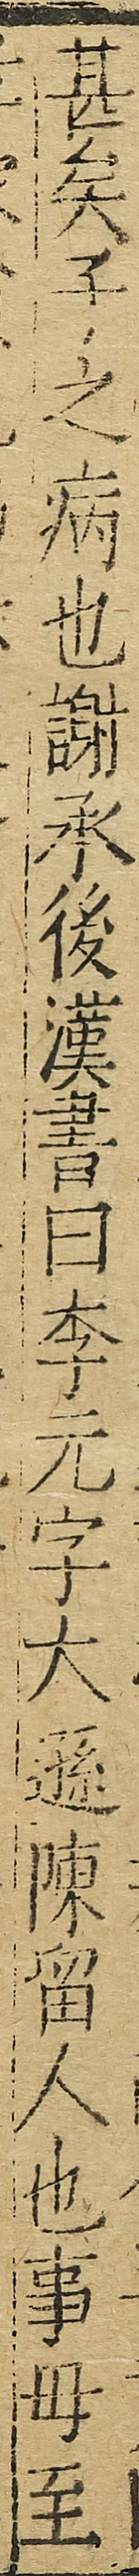甚矣子之病也謝氶後漢書曰李元字大遜陳留人也事母至
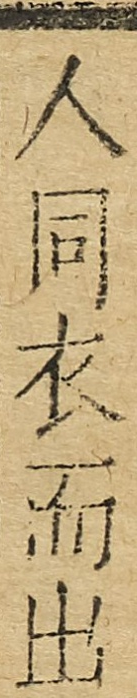人同衣而出
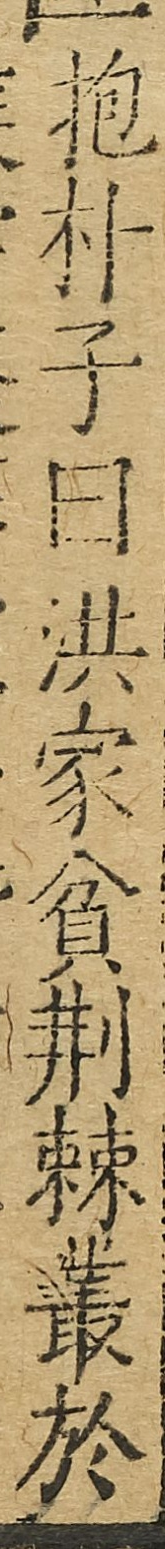抱樸子曰洪家貧荊棘叢於
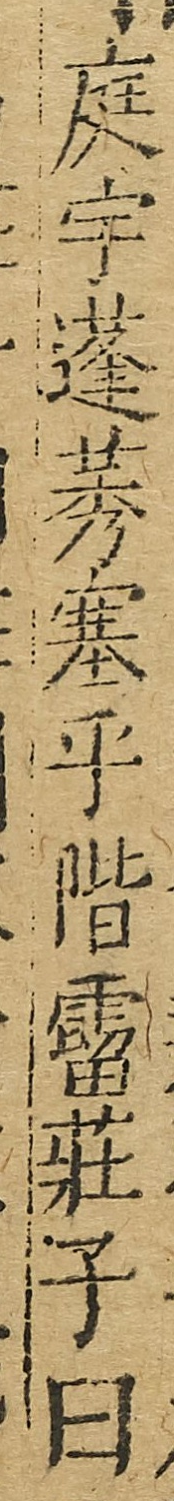庭宇蓬莠塞乎階霤莊子曰
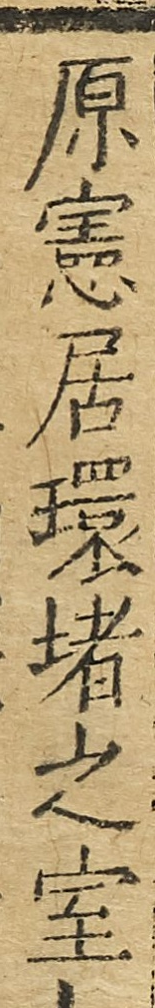原憲居環堵之室
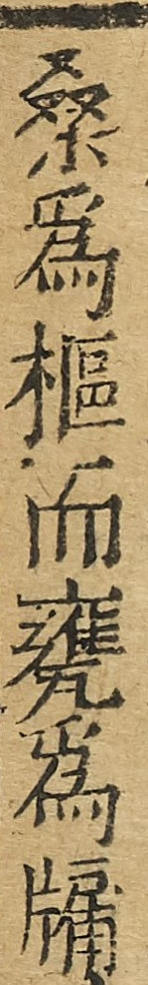桑為樞而甕為牖
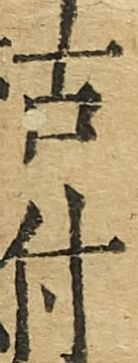枯鮒
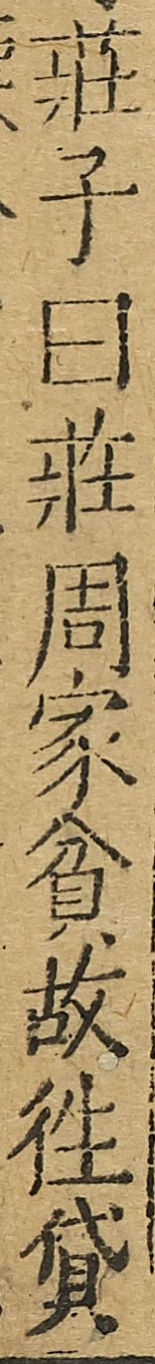莊子曰莊周家貧故往貸
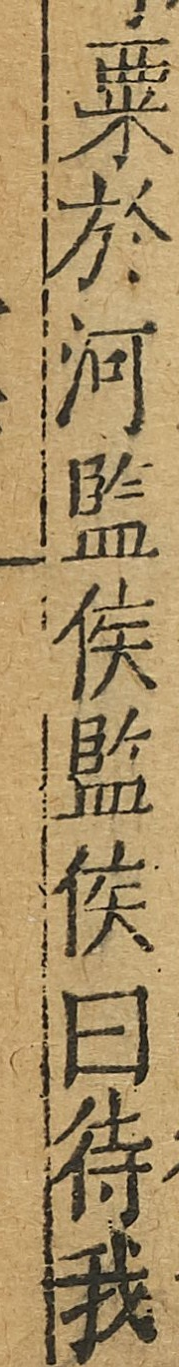粟於河監侯監侯曰待我
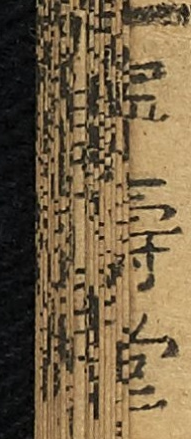寧壽堂
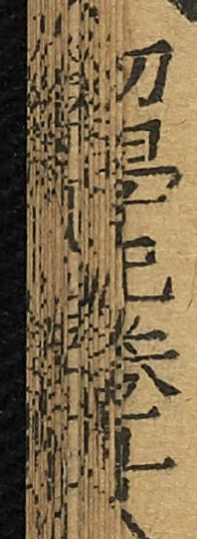初學記卷十八
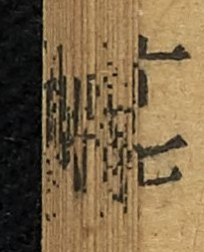十七
